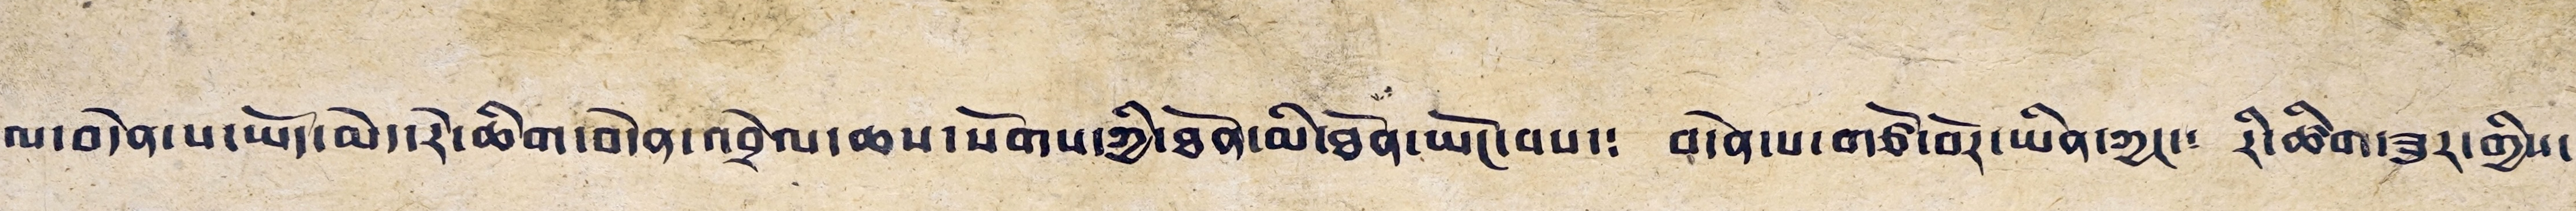ལ་བདེན་པ་ཡོད་མེད་རེ་ཆིག་བདེན་འབྲེལ་ཆས་སོགས་ཀྱི་ཐོན་མི་ཐོན་ཡོང་བས་༴ བདེན་པ་གཙོ་བོར་ཡིན་ཀྱང་༴ རི་ཚིག་ཟུར་གྱིས་
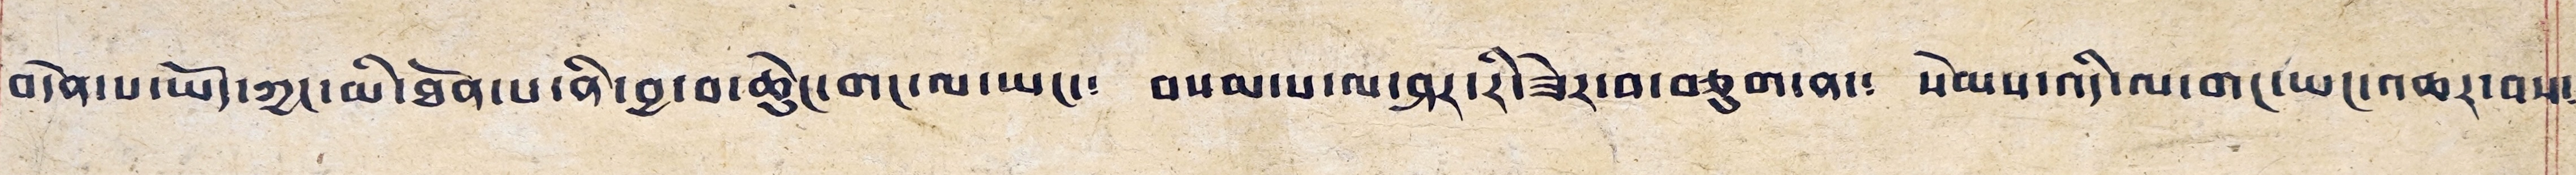བདེན་པ་ཡོད་ཀྱང་མི་ཐོན་པ་ནི་བྱ་བ་ཆེུང་གང་ལ་ཡང་༴ བསམ་པ་ལ་ཤར་རི་ཟེར་བ་བཅུག་ན་༴ སེམས་འདི་ལ་གང་ཡང་འཆར་བས༴
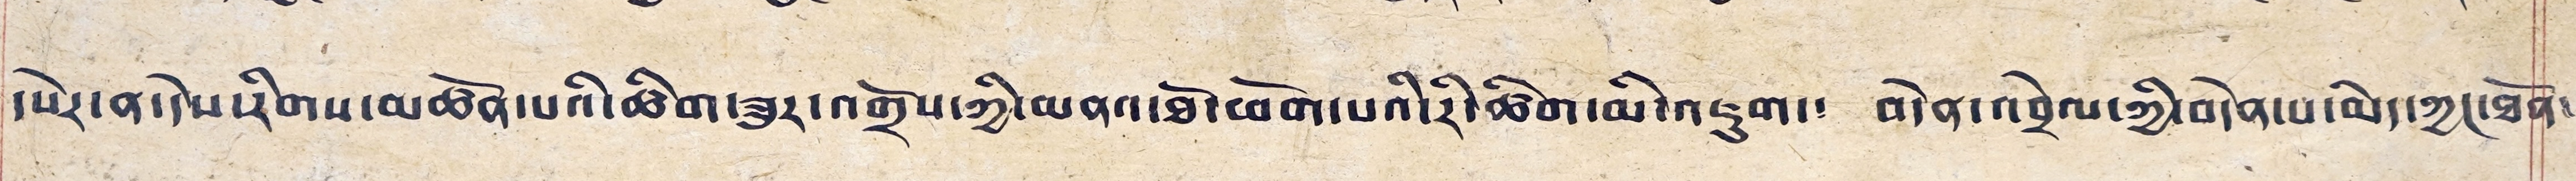དཔེར་ན་དེས་རིགས་མཚོན་པའི་ཚིག་ཟུར་འགྲོས་ཀྱི་མནའ་ཐོ་ཕོག་པའི་རི་ཚིག་མི་འཇུག་༴ བདེན་འབྲེལ་ཀྱི་བདེན་པ་མེད་ཀྱང་ཐོན་
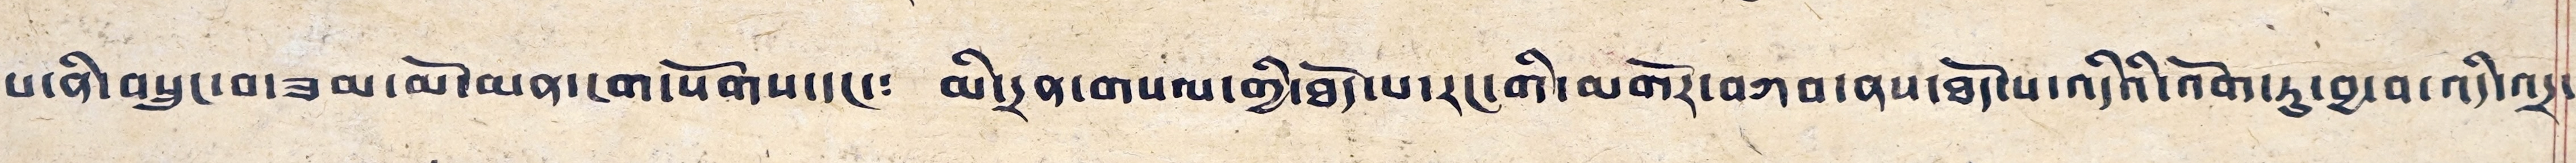པ་ནི་བསྲུང་བ་ཟམ་མོ་མན་ངག་སོགས་དང་༴ མི་དྲན་གསལ་གྱི་ཐོད་པ་རང་གི་མགོར་བཀབ་ནས་ཐོད་པ་འདིའི་འོག་ཏུ་བྱ་བ་འདི་འདྲ་
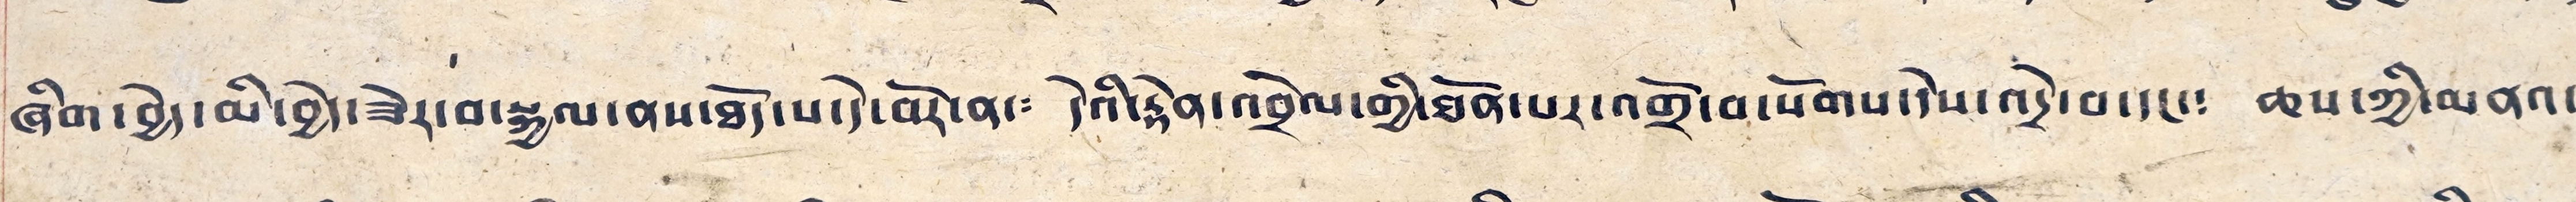ཞིག་བྱེད་མི་བྱེད་ཟེར་བ་སྐྱལ་ནས་ཐོད་པ་དེ་བོར་ན་༴ དེའི་རྟེན་འབྲེལ་གྱི་ཐོན་པར་འགྲོ་བ་སོགས་དེས་འདྲེ་བ་དང་༴ ཆས་ཀྱི་མནའ་
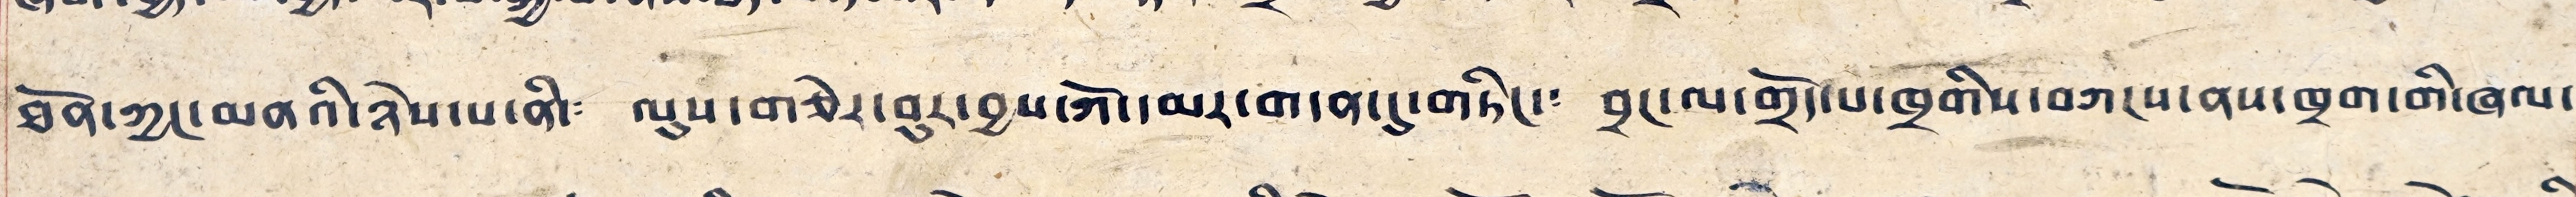ཐོན་ཀྱང་མནའི་ཉེས་པ་ནི་༴ ལུས་གཅེར་བུར་བྱས་ཀོ་དམར་གདན་དུ་གཏིང་༴ བྲང་ལ་གྲོད་པ་ཁྲགིས་བཀངས་ནས་ཁྲག་གི་ཞལ་
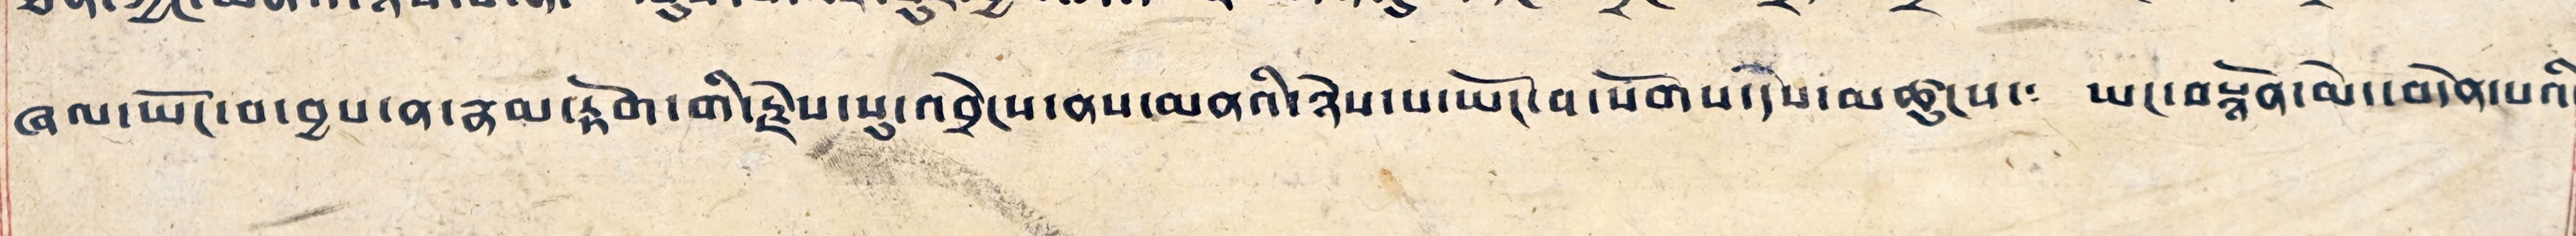ཞལ་ཡོང་བ་བྱས་ན་རྣམ་རྟོག་གི་རྗེས་སུ་འབྲེངས་ནས་མནའི་ཉེས་པ་ཡོང་བ་སོགས་དེས་མཚུངས་༴ ཡང་བསྙོན་མེད་བདེན་པའི་
